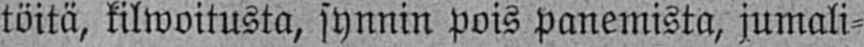töitä, kilwoitusta, synnin pois panemista, jumali-
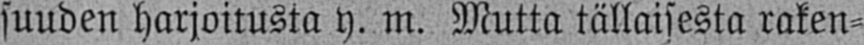suuden harjoitusta y. m. Mutta tällaisesta raken-
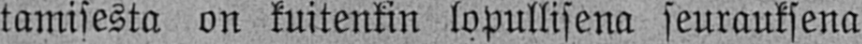tamisesta on kuitenkin lopullisena seurauksena
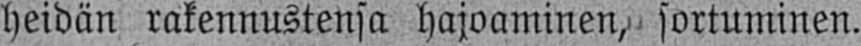heidän rakennustensa hajoaminen, sortuminen.
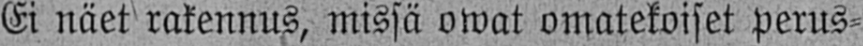Ei näet rakennus, missä owat omatekoiset perus-
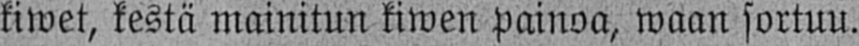kiwet, kestä mainitun kiwen painoa, waan sortuu.
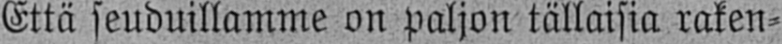Että seuduillamme on paljon tällaisia raken-
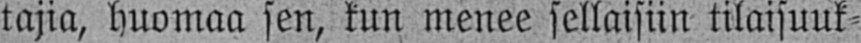tajia, huomaa sen, kun menee sellaisiin tilaisuuk-
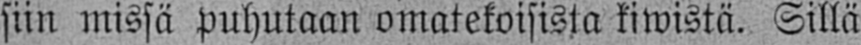siin missä puhutaan omatekoisista kiwistä. Sillä
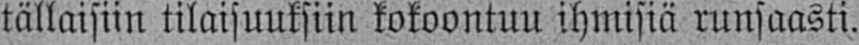tällaisiin tilaisuuksiin kokoontuu ihmisiä runsaasti.
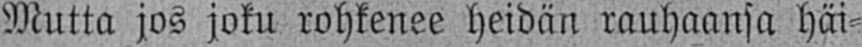Mutta jos joku rohkenee heidän rauhaansa häi-
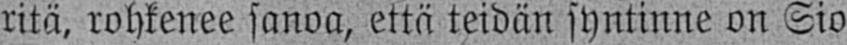ritä, rohkenee sanoa, että teidän syntinne on Sio-
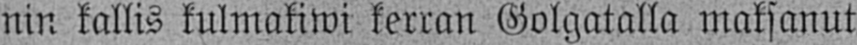nin kallis kulmakiwi kerran Golgatalla maksanut
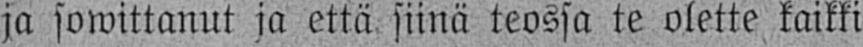ja sowittanut ja että siinä teossa te olette kaikki
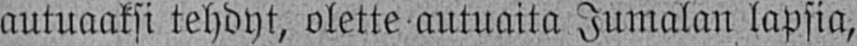autuaaksi tehdyt, olette autuaita Jumalan lapsia,
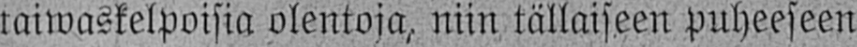taiwaskelpoisia olentoja, niin tällaiseen puheeseen
